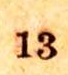13
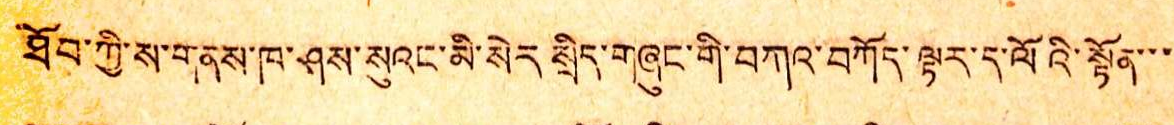ཐོབ་ཀྱི་ས་གནས་ཁ་ཤས་སུའང་མི་སེར སྲིད་གཞུང་གི་བཀའ་བཀོད་ལྟར་ད་ལོའི་སྟོན་་་
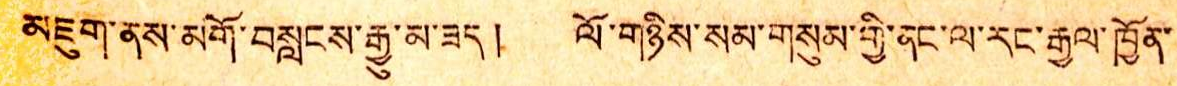མཇུག་ནས་མགོ་བསླངས་རྒྱུ་མ་ཟད། ལོ་གཉིས་སམ་གསུམ་གྱི་ནང་ལ་རང་རྒྱལ་ཁྱོན་
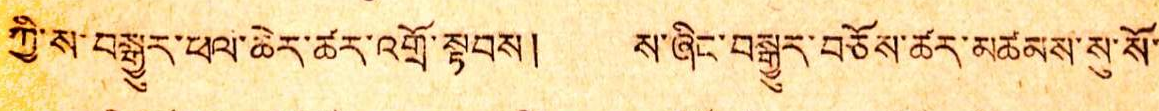ཀྱི་ས་བསྐྱུར་ཕལ་ཆེར་ཚར་འགྲོ་སྟབས། ས་ཞིང་བསྒྱུར་བཅོས་ཚར་མཚམས་སུ་སོ་
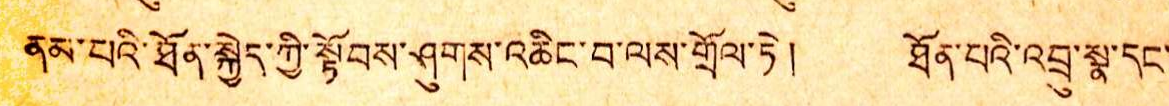ནམ་པའི་ཐོན་སྐྱིད་ཀྱི་སྟོབས་ཤུགས་འཆིང་བ་ལས་གྲོལ་ཏེ། ཐོན་པའི་འབྲུ་སྣ་དང་
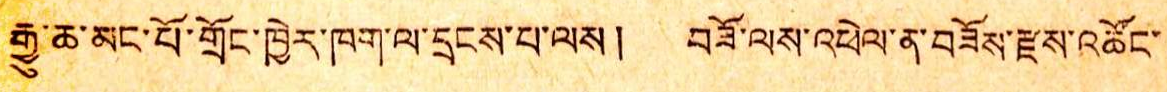རྒྱུ་ཆ་མང་པོ་གྲོང་ཁྱེར་ཁག་ལ་དྲངས་བ་ལས། བཟོ་ལས་འཕེལ་ན་བཟོས་རྫས་འཚོང་
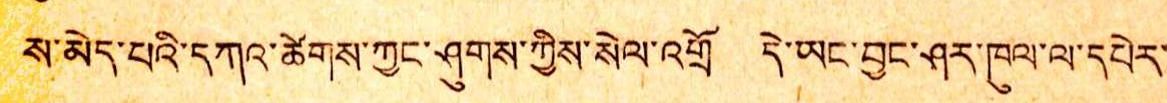ས་མེད་པའི་དཀའ་ཚེགས་ཀྱང་ཤུགས་ཀྱིས་སེལ་འགྲོ དེ་ཡང་བྱང་ཤར་ཁུལ་ལ་དཔེར་
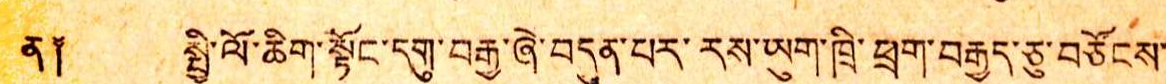ན༐ སྤྱི་ལོ་ཆིག་སྟོང་འགུ་བརྒྱ་ཞེ་བདུན་པར་རས་ཡུག་ཁྲི་ཕྲག་བརྒྱད་ཅུ་བཙོངས་
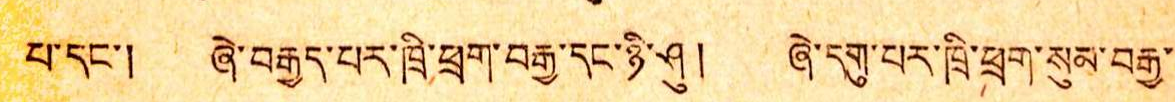པ་དང་། ཞེ་བརྒྱད་པར་ཁྲི་ཕྲག་བརྒྱ་དང་ཉི་ཤུ། ཞེ་དགུ་པར་ཁྲི་ཕྲག་སུམ་བརྒྱ་
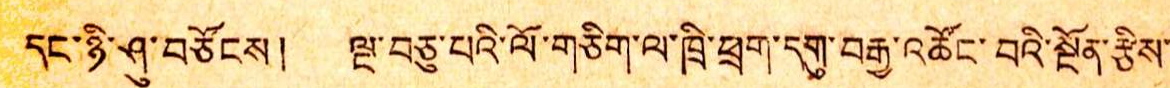དང་ཉི་ཤུ་བཅོངས། ལྔ་བཅུ་པའི་ལོ་གཅིག་ལ་ཁྲི་ཕྲག་དགུ་བརྒྱ་འཚོང་བའི་སྔོན་རྩིས་
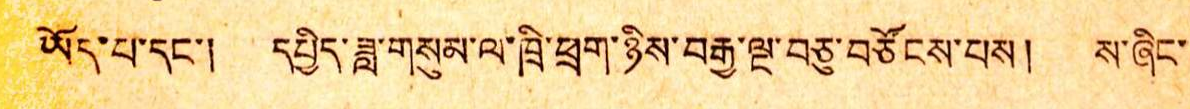ཡོད་པ་དང་། དཔྱིད་ཟླ་གསུམ་ལ་ཁྲི་ཕྲག་ཉིས་བརྒྱ་ལྔ་བཅུ་བཙོངས་པས། ས་ཞིང་
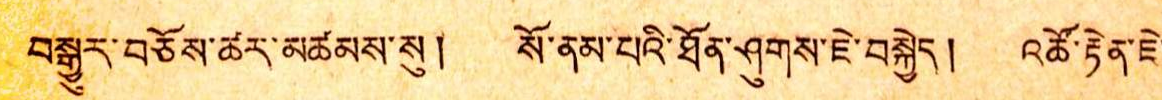བསྒྱུར་བཅོས་ཚར་མཚམས་སུ། སོ་ནམ་པའི་ཐོན་ཤུགས་ཇེ་བསྐྱེད། འཚོ་རྟེན་ཇེ་
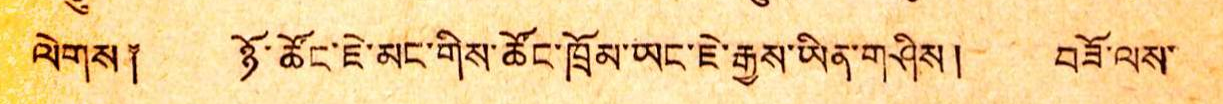ལེགས༐ ཉོ་ཚོང་ཇེ་མང་གིས་ཚོང་ཁྲོམ་ཡང་ཇེ་རྒྱས་ཡིན་གཤིས། བཟོ་ལས་
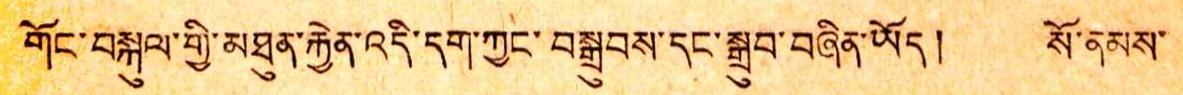གོང་བསྐུལ་གྱི་མཐུན་རྐྱེན་འདི་དག་ཀྱང་བསྒྲུབས་དང་སྒྲུབ་བཞིན་ཡོད། སོ་ནམས་
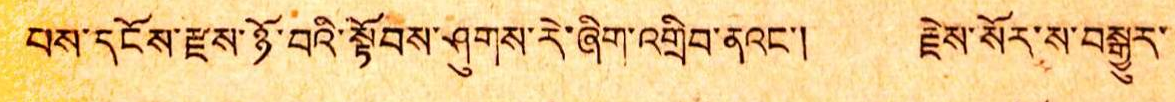བས་དངོས་རྫས་ཉོ་བའི་སྟོབས་ཤུགས་རེ་ཞིག་འགྲིབ་ནའང་། རྗེས་སོར་ས་བསྒྱུར་
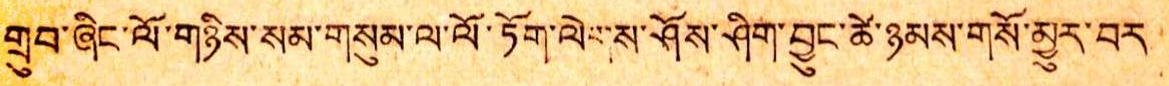གུབ་ཞིང་ལོ་གཉིས་སམ་གསུམ་ལ་ལོ་ཏོག་ལེགས་ཤོས་ཤིག་བྱུང་ཚེ་ཉམས་གསོ་མྱུར་བར་
